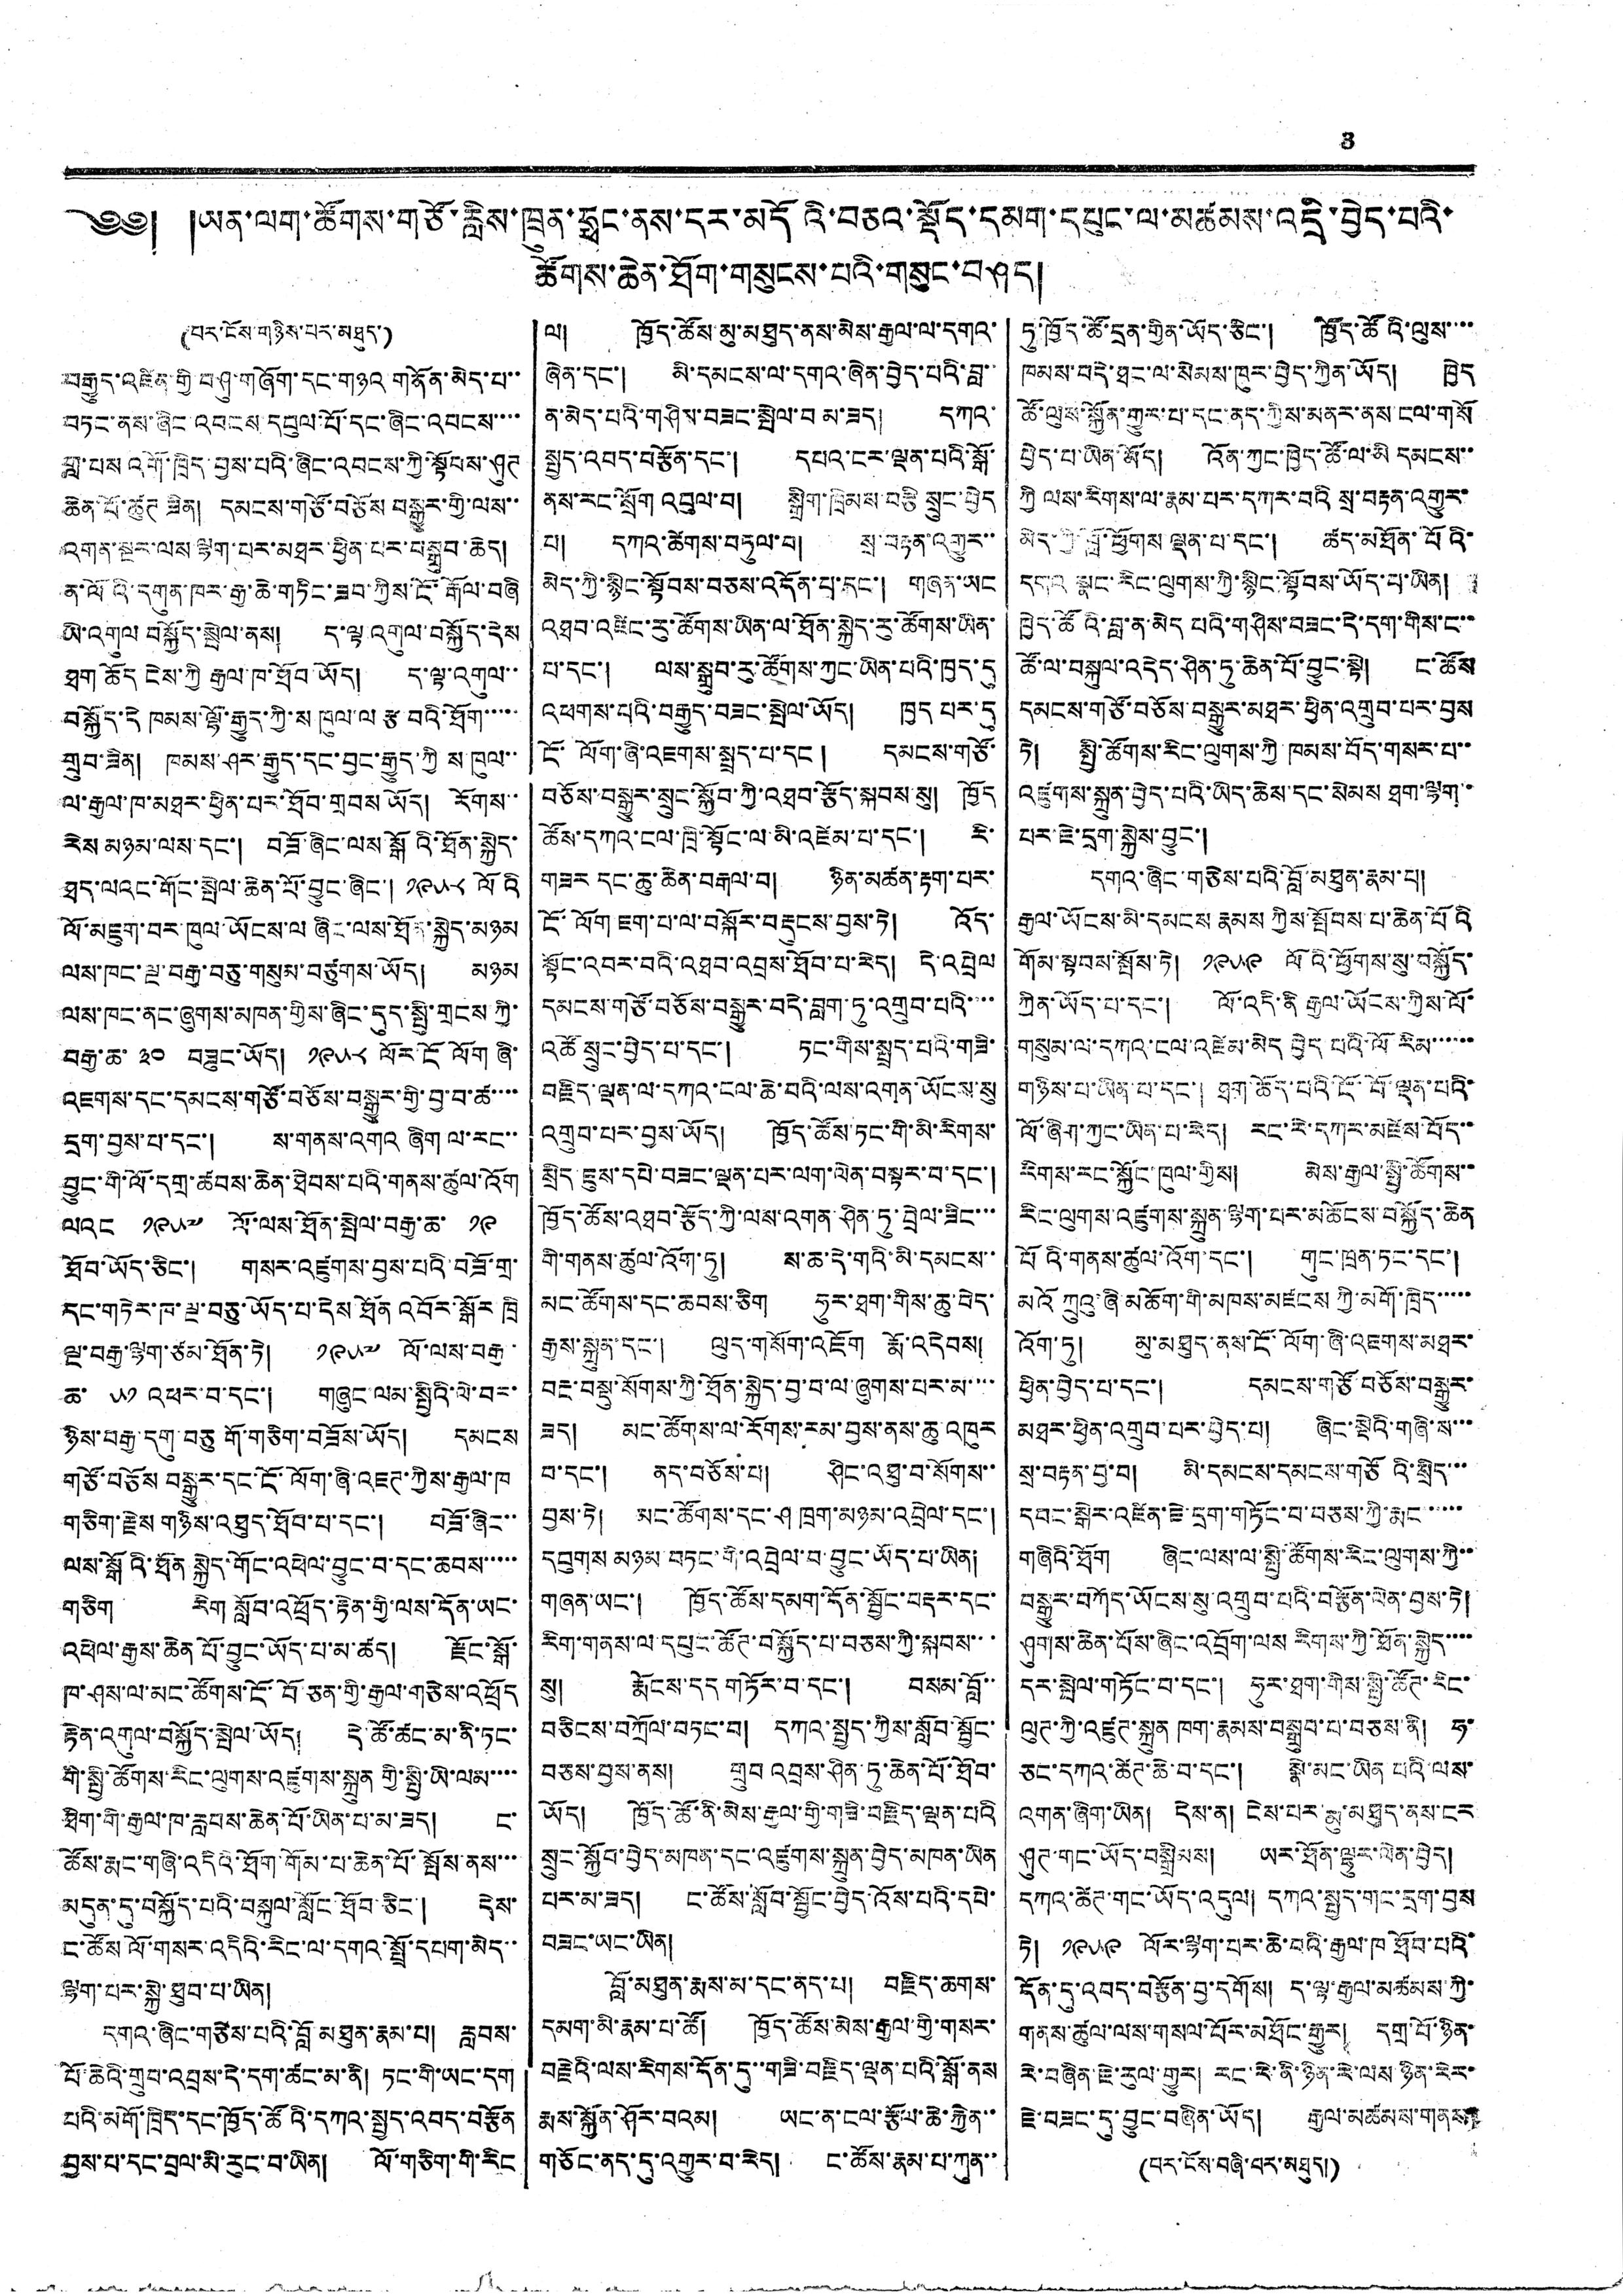3
༄༅། །ཡན་ལག་ཚོགས་གཙོ་རླིས་ཁྲུན་ཧྥང་ནས་དར་མདོའི་བཅའ་སྡོད་དམག་དཔུང་ལ་མཚམས་འདྲི་བྱེད་པའི་
ཚོགས་ཆེན་ཐོག་གསུངས་པའི་གསུང་བཤད།
(པར་ངོས་གཉིས་པར་མཐུད་)
བརྒྱུད་འཛིན་གྱི་བཤུ་གཞོག་དང་གཉའ་གནོན་མེད་པ་་
བཏང་ནས་ཞིང་འབངས་དབུལ་པོ་དང་ཞིང་འབངས་་་་
གླ་པས འགོ་ཁྲིད་བྱས་པའི་ཞིང་འབངས་ཀྱི་སྟོབས་ཤུཊ
ཆེན་པོ་ཚུཊ ཟིན། དམངས་གཙོ་བཅོས བསྒྱུར་གྱི་ལས་་
འགན་སྔར་ལས་ལྷག་པར་མཐར་ཕྱིན་པར་བསྒྲུབ་ཆེད།
ན་ལོའི་དགུན་ཁར་རྒྱ་ཆེ་གཏིང་ཟབ་ཀྱིས་ངོ་རྒོལ་བཞི
ཡི་འགུལ བསྐྱོད་སྤེལ་ནས། ད་ལྟ འགུལ་བསྐྱོད་དེས
ཐག ཆོད ངེས་ཀྱི རྒྱལ་ཁ་ཐོབ་ཡོད། ད་ལྟ་འགུལ་་
བསྐྱོད་དེ ཁམས་ལྷོ་རྒྱུད་ཀྱི་ས ཁུལ་ལ རྩ་བའི་ཐོག་་་་་
གྲུབ་ཟིན། ཁམས་ཤར་རྒྱུད་དང་བྱང་རྒྱུད་ཀྱི ས་ཁུལ་་
ལ་རྒྱལ་ཁ་མཐར་ཕྱིན་པར་ཐོབ་གྲབས ཡོད། རོགས་་
རེས་མཉམ་ལས་དང་། བཟོ་ཞིང་ལས་སྒོའི་ཐོན་སྐྱེད་
ཐད་ལའང་གོང་སྤེལ་ཆེན་པོ་བྱུང་ཞིང་། ༡༩༥༨ ལོའི
ལོ་མཇུག་བར་ཁུལ་ཡོངས་ལ ཞིང་ལས་ཐོན་སྐྱེད་མཉམ
ལས་ཁང་ལྔ་བརྒྱ་བཅུ་གསུམ་བཙུགས་ཡོད། མཉམ
ལས་ཁང་ནང་ཞུགས་མཁན་གྱིས་ཞིང་དུད་སྤྱི་གྲངས་ཀྱི་
བརྒྱ་ཆ་ ༣༠ བཟུང་ཡོད། ༡༩༥༨ ལོར་ངོ ལོག ཞི་
འཇགས་དང་དམངས་གཙོ་བཅོས་བསྒྱུར་གྱི་བྱ་བ་ཚ་་་་
དྲག་བྱས་པ་དང་། ས་གནས་འགའ ཞིག ལ་རང་་
བྱུང་གི་ལོ་དགྲ་ཚབས་ཆེན་ཐེབས་པའི་གནས་ཚུལ་འོག
ལའང ༡༩༥༧ ལོ་ལས་ཐོན་སྤེལ་བརྒྱ་ཆ་ ༡༩
ཐོབ་ཡོད་ཅིང་། གསར་འཛུགས་བྱས་པའི་བཟོ་གྲ་
དང་གཏེར་ཁ་ལྔ་བཅུ་ཡོད་པ་དེས་ཐོན འབོར་སྒོར ཁྲི
ལྔ་བརྒྱ་ལྷག་ཙམ་ཐོན་ཏེ། ༡༩༥༧ ལོ་ལས་བརྒྱ་
ཆ་ ༥༡ འཕར་བ་དང་། གཞུང་ལམ་སྤྱིའི་ལེ་བར་
ཉིས་བརྒྱ་དགུ་བཅུ གོ་གཅིག་བཟོས་ཡོད། དམངས
གཙོ་བཅོས བསྒྱུར་དང་ངོ་ལོག་ཞི་འཇཊ་ཀྱིས་རྒྱལ་ཁ
གཅིག་རྗེས གཉིས་འཐུད་ཐོབ་པ་དང་། བཟོ་ཞིང་་
ལས་སྒོའི་ཐོན སྐྱེད་གོང་འཕེལ་བྱུང་བ་དང་ཆབས་་་་་
གཅིག རིག སློབ་འཕྲོད་རྟེན་གྱི་ལས་དོན་ཡང་
འཕེལ་རྒྱས་ཆེན པོ་བྱུང་ཡོད་པ་མ་ཚད། རྫོང་སྒོ་
ཁ་ཤས་ལ་མང་ཚོགས་ངོ་བོ་ཅན་གྱི་རྒྱལ་གཅེས་འཕྲོད
རྟེན་འགུལ་བསྐྱོད་སྤེལ་ཡོད། དེ་ཚོ་ཚང་མ་ནི་ཏང་
གི་སྤྱི་ཚགས་རིང་ལུགས་འཛུགས་སྐྲུན གྱི་སྤྱི་ཡི་ལམ་་་་
ཐིག་གི་རྒྱལ་ཁ་རླབས་ཆེན་པོ་ཡིན་པ་མ་ཟད། ང་
ཚོས་རྨང་གཞི་འདིའི་ཐོག་གོམ་པ་ཆེན་པོ་སྤོས་ནས་་་
མདུན་དུ་བསྐྱོད་པའི་བསྐུལ་སློང་ཐོབ་ཅིང་། དེས་
ང་ཚོས ལོ་གསར་འདིའི་རིང་ལ་དགའ་སྤྲོ་དཔག་མེད་་
ལྷག་པར་སྐྱེ་ཐུབ་པ་ཡིན།
དགའ་ཞིང་གཙེས་པའི་བློ་མཐུན་རྣམ་པ། རླབས་
པོ་ཆེའི་གྲུབ་འབྲས་དེ་དག་ཚང་མ་ནི། ཏང་གི་ཡང་དག
པའི་མགོ་ཁྲིད་དང་ཁྱོད་ཚོའི་དཀའ་སྤྱད་འབད་བརྩོན
བྱས་པ་དང་བྲལ་མི་རུང་བ་ཡིན། ལོ་གཅིག་གི་རིང
ལ། ཁྱོད་ཚོས་མུ་མཐུད་ནས་མེས་རྒྱལ་ལ་དགའ་
ཞེན་དང་། མི་དམངས་ལ་དགའ་ཞེན་བྱད་པའི་བླ་་
ན་མེད་པའི་གཤིས་བཟང་སྤེལ་བ མ་ཟད། དཀའ་
སྤྱད་འབད་བརྩོན་དང་། དཔའ་ངར་ལྡན་པའི་སྒོ་
ནས་རང་སྲོག འབུལ་བ། སྒྲིག་ཁྲིམས་བརྩི་སྲུང་བྱེད
པ། དཀའ་ཚེགས་བཏུལ་བ། སྲ་བརྟན་འགྱུར་་
མེད་ཀྱི་སྙིང་སྟོབས་བཅས་འདོན་པ་དང་། གཞན་ཡང
འཐབ་འཛིང་རུ་ཚོགས་ཡིན་ལ་ཐོན་སྐྱེད་རུ་ཚོགས་ཡིན་
པ་དང་། ལས་སྒྲུབ་རུ་ཚོགས་ཀྱང་ཡིན་པའི་ཁྱད་དུ
འཕགས་པའི་བརྒྱུད་བཟང་སྤེ་ཡོད། ཁྱད པར་དུ
ངོ་ལོག་ཞི་འཇགས་སྤྲད་པ་དང ། དམངས་གཙོ་
བཅོས་བསྒྱུར་སྲུང་སྐྱོབ་ཀྱི་འཐབ་རྩོད་སྐབས་སུ། ཁྱོད
ཚོས་དཀའ་ངལ་ཁྲི་སྟོང་ལ་མི་འཛེསྨ་པ་དང་། རི་
གཟར དང་ཆུ་ཆེན་བརྒལ་བ། ཉིན་མཚན་རྟག་པར་
ངོ་ལོག ཇག་པ་ལ་བསྐོར་བརྡུངས་བྱས་ཏེ། འོད་
སྟོང་འབར་བའི་འཐབ་འབྲས་ཐོབ་པ་རེད། དེ་འབྲེལ
དམངས་གཙོ་བཅོས་བསྒྱུར་བདེ་བླག་ཏུ་འགྲུབ་པའི་་་་
འཚོ སྲུང་བྱེད་པ་དང་། ཏང་གིས་སྤྲད་པའི་གཟི་
བརྗིད་ལྡན་ལ་དཀའ་ངལ་ཆེ་བའི་ལས་འགན་ཡོངས་སུ
འགྲུབ་པར་བྱས་ཡོད། ཁྱོད་ཚོས་ཏང་གི་མི་རིགས་
སྲིད་ཇུས་དཔེ་བཟང་ལྡན་པར་ལག་ལེན་བསྟར་བ་དང་།
ཁྱོད་ཚོས་འཐབ་རྩོད་ཀྱི་ལས་འགན་ཤིན་ཏུ་བྲེལ་ཟིང་་་
གི་གནས་ཚུལ་འོག་ཏུ། ས་ཆ་དེ་གའི་མི་དམངས་་
མང་ཚོགས་དང་ཆབས་ཅིག ཧུར་ཐག་གིས་ཆུ་བེད་
རྒྱས་སྐྲུན་དང་། ལུད་གསོག་འཇོག རྨོ་འདེབས།
བརྔ་བསྡུ་སོགས་ཀྱི་ཐོན་སྐྱེད་བྱ་བ་ལ་ཞུགས་པར་མ་་་་
ཟད། མང་ཚོགས་ལ་རོགས་རམ་བྱས་ནས་ཆུ་འཁུར
བ་དང་། ནད་བཅོས་པ། ཤིང་འཐུ་བ་སོགས་་
བྱས་ཏེ། མང་ཚོགས་དང་ཤ ཁྲག་མཉམ་འབྲེལ་དང་།
དབུགས མཉམ་བཏང་གི་འབྲེལ་བ་བྱུང་ཡོད་པ་ཡིན།
གཞན་ཡང་། ཁྱོད་ཚོས་དམག་དོན་སྦྱོང་བརྡར་དང་
རིག་གནས་ལ་དཔུང་ཚོཊ་བསྐྱོད་པ་བཅས་ཀྱི་སྐབས་་་་
སུ། རྨོངས་དད གཏོར་བ་དང་། བསམ་བློ་་
བཅིངས་བཀྲོལ་བཏང་བ། དཀའ་སྤྱད་ཀྱིས་སློབ་སྦྱོང་
བཅས་བྱས་ནས། གྲུབ འབྲས་ཤིན་ཏུ་ཆེན་པོ་ཐོབ་
ཡོད། ཁྱོད་ཙོཧ་ནི་མེས་རྒྱལ་གྱི་གཟི་བརྗིད་ལྡན་པའི
སྲུང་སྐྱོབ་བྱེད་མཁན་དང་འཛུགས་སྐྲུན་བྱེད་མཁན་ཡིན
པར་མ་ཟད། ང་ཚོས་སློབ་སྦྱོང་བྱད་འོས་པའི་དཔེ་
བཟང་ཡང་ཡིན།
བློ་མཐུན་རྨས་མ་དང་ནད་པ། བརྗིད་ཆགས་
དམག་མི་རྣམ་པ་ཚོ། ཁྱོད་ཚོས་མེས་རྒྱལ་གྱི་གསར་
བརྗེའི་ལས་རིགས་དོན་དུ་་གཟི་བརྗིད་ལྡན་པའི་སྒོ་ནས
རྨས་སྐྱོན་ཤོར་བའམ། ཡང་ན་ངལ་རྩོལ་ཆེ་རྐྱེན་་
གཅོང་ནད་དུ་འགྱུར་བ་རེད། ང་ཚོས་རྣམ་པ་ཀུན་་
ཏུ་ཁྱོད་ཚོ་དྲན་གྱིན་ཡོད་ཅིང་། ཁྱོད་ཚོའི་ལུས་་་་
ཁམས་བདེ་ཐང་ལ་སེམས་ཁུར་བྱེད་ཀྱིན་ཡོད། ཁྱེད
ཚོ་ལུས་སྐྱོན་གྱུར་པ་དང་ནད་ཀྱིས་མནར་ནས་ངལ་གསོ
བྱེད་པ་ཡིན་མོད། འོན་ཀྱང་ཁྱེད་ཚོ་ལ་མི དམངས་་
ཀྱི ལས་རིགས་ལ་རྣམ་པར་དཀར་བའི སྲ་བརྟན་འགྱུར་
མེད་ཀྱི་བློ་ཕྱོགས ལྡན་པ་དང་། ཚད་མཐོན་པོའི་
དགའ སྣང་རིང་ལུགས་ཀྱི་སྙིང་སྟོབས་ཡོད་པ་ཡིན།
ཁྱེད་ཚོའི་བླ་ན་མེད པའི་གཤིས་བཟང་དེ་དག་གིས་ང་་
ཚོ་ལ་བསྐུལ་འདེད་ཤིན་ཏུ་ཆེན་པོ་བྱུང་སྟེ། ང་ཚོས
དམངས་གཙོ་བཅོས་བསྒྱུར་མཐར་ཕྱིན་འགྲུབ་པར་བྱས
ཏེ། སྤྱི་ཚོགས་རིང་ལུགས་ཀྱི་ཁམས་བོད་གསར་པ་་
འཛུགས་སྐྲུན་བྱེད་པའི་ཡིད་ཆེས་དང་སེམས ཐག་ལྷག་་
པར་ཇེ་དྲག་སྐྱེས་བྱུང་།
དགའ་ཞིང་གཅེས་པའི་བློ་མཐུན་རྣམ་པ།
རྒྱལ་ཡོངས་མི་དམངས རྣམས ཀྱིས་སྤོབས་པ་ཆེན་པོའི
གོམ་སྟབས་སྤོས་ཏེ། ༡༩༥༩ ལོའི་ཕྱོགས་སུ་བསྐྱོད་
ཀྱིན་ཡོད་པ་དང་། ལོ་འདི་ནི རྒྱལ་ཡོངས་ཀྱིས་ལོ་
གསུམ་ལ་དཀའ་ངལ་འཛེམ་མེད བྱེད པའི་ལོ རིམ་་་་་་
གཉིས་པ་ཡིན་པ་དང་། ཐག་ཆོད་པའི་ངོ་བོ་ལྡན་པའི་
ལོ་ཞིག་ཀྱང་ཡིན་པ་རེད། རང་རེ་དཀར་མཛེས་བོད་་
རིགས་རང་སྐྱོང་ཁུལ་གྱིས། མེས་རྒྱལ་སྤྱི་ཚོགས་་
རིང་ལུགས་འཛུགས་སྐྲུན་ལྷག་པར་མཆོངས་བསྐྱོད་ཆེན
པོའི་གནས་ཚུལ་འོག་དང་། གུང་ཁྲན་ཏང་དང་།
མའོ ཀྲུའུ་ཞི་མཆོག་གི་མཁས་མཛངས ཀྱི་མགོ་ཁྲིད་་་་་
འོག་ཏུ། མུ་མཐུད་ནས་ངོ་ལོག་ཞི་འཇགས་མཐར་
ཕྱིན་བྱེད་པ་དང་། དམངས་གཙོ བཅོས་བསྒྱུར་
མཐར་ཕྱིན་འགྲུབ་པར་བྱེད་པ། ཞིང་སྡེའི་གཞི་ས་་་
སྲ་བརྟན་བྱ་བ། མི་དམངས་དམངས་གཙོའི་སྲིད་་་
དབང་སྒེར་འཛིན་ཇེ་དྲག་གཏོང་བ་བཅས་ཀྱི་རྨང་་་་་་
གཞིའི་ཐོག ཞིང་ལས་ལ་སྤྱི་ཚོགས་རིང་ལུགས་ཀྱི་་
བསྒྱུར་བཀོད་ཡོངས་སུ་འགྲུབ་པའི་བརྩོན་ལེན་བྱས་ཏེ།
ཤུགས་ཆེན་པོས་ཞིང་འབྲོག་ལས རིགས་ཀྱི་ཐོན་སྐྱེད་་་་
དར་སྤེལ་གཏོང་བ་དང་། ཧུར་ཐག་གིས་སྤྱི་ཚོཊ་རིང་
ལུཊ་ཀྱི་འཛུཊ་སྐྲུན ཁག་རྣམས་བསྒྲུབ་པ་བཅས་ནི། ཧ་
ཅང་དཀའ་ཚེཊ་ཆེ་བ་དང་། སྣེ་མང་ཡིན པའི་ལས་
འགན་ཞིག་ཡིན། དེས་ན། ངེས་པར་མུ་མཐུད་ནས་ངར
ཤུཊ་གང་ཡོད་བསྒྲིམས། ཡར་ཐོན་ལྷུར་ལེན་བྱེད།
དཀའ་ཚེཊ་གང་ཡོད་འདུལ། དཀའ་སྤྱད་གང་དྲག་བྱས
ཏེ། ༡༩༥༩ ལོར་ལྷག་པར་ཆེ་བའི་རྒྱལ་ཁ ཐོབ་པའི་
དོན་དུ་འབད་བརྩོན་བྱ་དགོས། ད་ལྟ་རྒྱལ་མཚམས་ཀྱི་
གནས་ཚུལ་ལས་གསལ་པོར་མཐོང་རྒྱུར། དགྲ་པོ་ཉིན་
རེ་བཞིན་ཇེ་རུལ་གྱུར། རང་རེ་ནི་ཉིན་རེ་ལས་ཉིན་རེར་
ཇེ་བཟང་དུ་བྱུང་བཞིན་ཡོད། རྒྱལ་མཚམས་གནས།
(པར་ངོས་བཞི་པར་མཐུད།)
